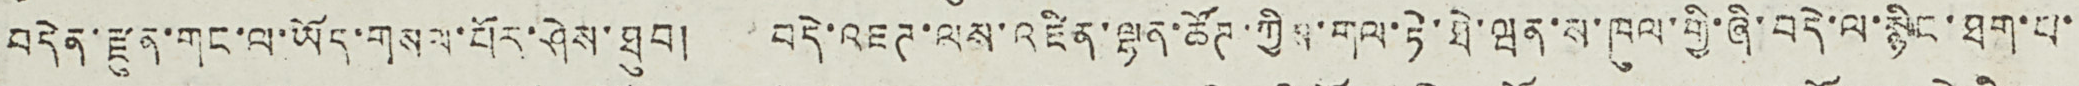བདེན་རྫུན་གང་ལ་ཡོད་གསལ་པོར་ཤེས་ཐུབ། བདེ་འཇཊ་ལས་འཛིན་ལྷན་ཚོཊ་ཀྱིས་གལ་ཏེ་ཐེ་ཝན་ས་ཁུལ་གྱི་ཞི་བདེ་ལ་སྙིང་ཐག་པ་
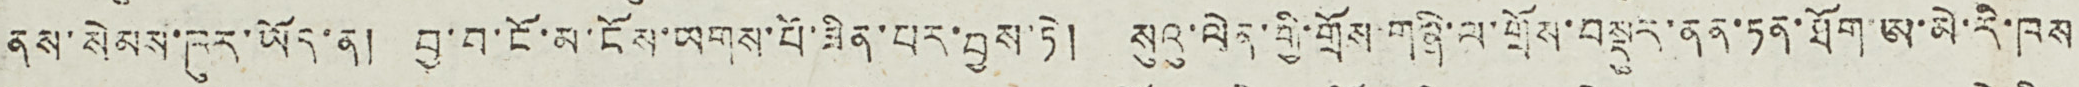ནས་སེམས་ཁུར་ཡོད་ན། བྱ་བ་ངོ་མ་ངོས་ཡགས་པོ་ཟིན་པར་བྱས་ཏེ། སུའུ་ལེན་གྱི་གྲོས་གཞི་ལ་གྲོས་བསྡུར་ནན་ཏན་ཐོག་ཨ་མེ་རི་ཁས
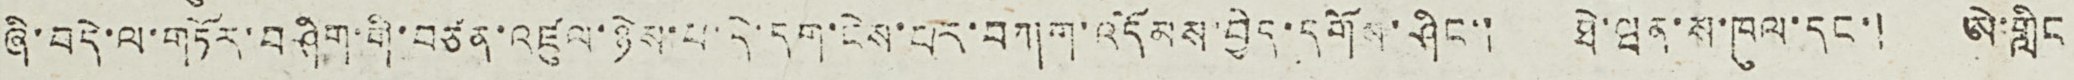ཞི་བདེ་ལ་གཏོར་བཤིག་གི་བཙན་འཛུལ་ཉེས་པ་དེ་དག་ངེས་པར་བཀག་འདོམས་བྱེད་དགོས་ཤིང་། ཐེ་ཝན་ས་ཁུལ་དང་། ཨེ་གླིང
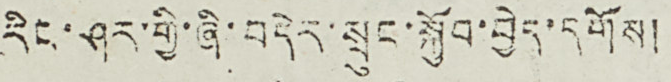རིང་ཤར་གྱི་ཞི་བདེར་སྲུང་སྐྱོབ་བྱེད་དགོས།
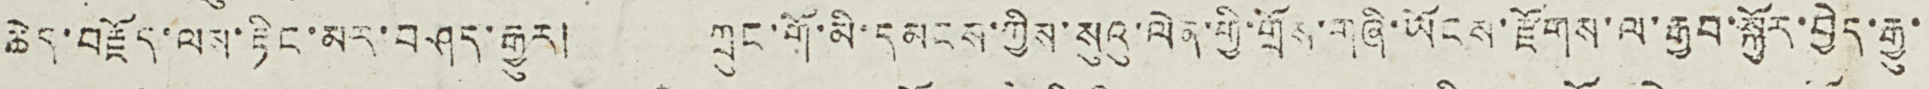ཆེད་བརྗོད་ལས་རྟིང་མར་བཤད་རྒྱུར། ཀྲུང་གོ་མི་དམངས་ཀྱིས་སུའུ་ལེན་གྱི་གྲོས་གཞི་ཡོངས་རྫོགས་ལ་རྒྱབ་སྐྱོར་བྱེད་རྒྱུ་
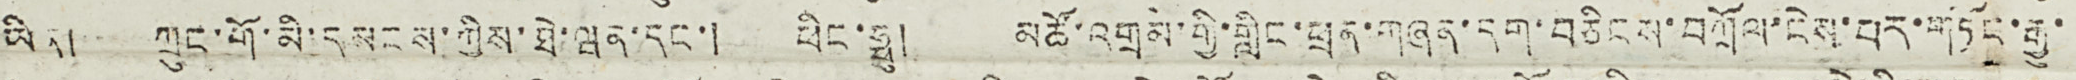ཡིན། ཀྲུང་གོ་མི་དམངས་ཀྱིས་ཐེ་ཝན་དང་། ཕྱིང་ཧྥུ། མཚོ་འགྲམ་གྱི་གླིང་ཕྲན་གཞན་དག་བཅིངས་བཀྲོལ་ངེས་པར་གཏོང་རྒྱུ་
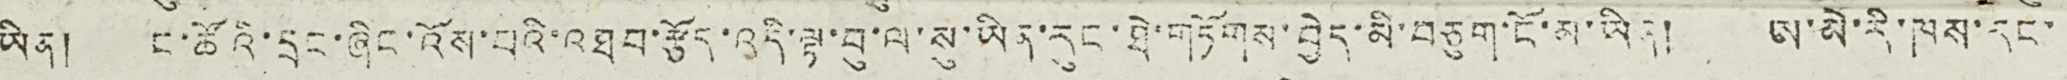ཡིན། ང་ཚོའི་དྲང་ཞིང་འོས་པའི་འཐབ་རྩོད་འདི་ལྟ་བུ་ལ་སུ་ཡིན་རུང་ཐེ་གཏོགས་བྱེད་མི་བཅུག་ངོ་མ་ཡིན། ཨ་མེ་རི་ཁས་རང་
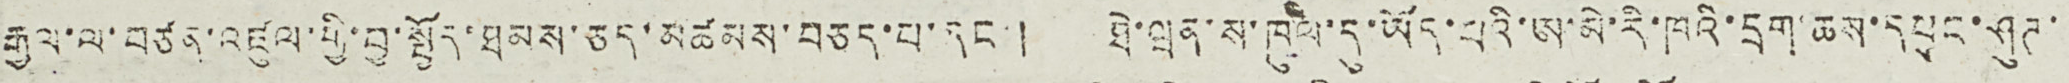རྒྱལ་ལ་བཙན་འཛུལ་གྱི་བྱ་སྤྱོད་ཐམས་ཅད་མཚམས་བཅད་པ་དང་། ཐེ་ཝན་ས་ཁུལ་དུ་ཡོད་པའི་ཨ་མེ་རི་ཁའི་དྲག་ཆས་དཔུང་ཤུཊ་
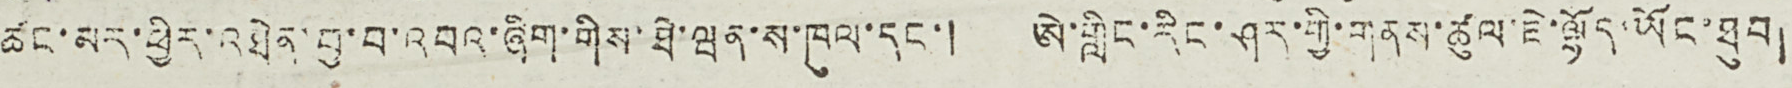ཚང་མར་ཕྱིར་འཐེན་བྱ་བ་འབའ་ཞིག་གིས་ཐེ་ཝན་ས་ཁུལ་དང་། ཨེ་གླིང་རིང་ཤར་གྱི་གནས་ཚུལ་ཇེ་ལྷོད་ཡོང་ཐུབ།
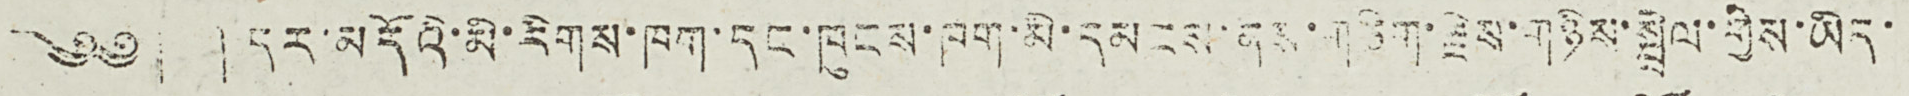༄༅། །དར་མདོའི་མི་རིགས་ཁག་དང་ཁུངས་ཁག་མི་དམངས་ནས་གཅིག་རྗེས་གཉིས་སྤྲེལ་གྱིས་ཡིད་
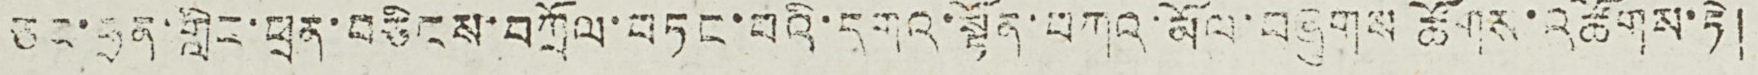ཅང་ཧྲན་གླིང་ཕྲན་བཅིངས་བཀྲོལ་བཏང་བའི་དགའ་སྟོན་བཀའ་མོལ་བཞུགས་ཚོགས་འཚོགས་ཏེ།
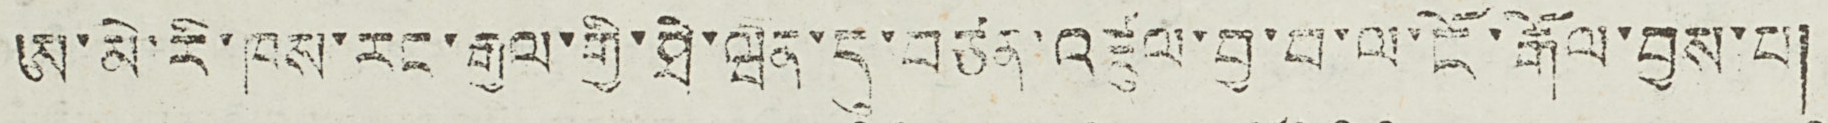ཨ་མེ་རི་ཁས་རང་རྒྱལ་གྱི་ཐེ་ཝན་དུ་བཙན་འཛུལ་བྱ་བ་ལ་ངོ་རྒོལ་བྱས་པ།
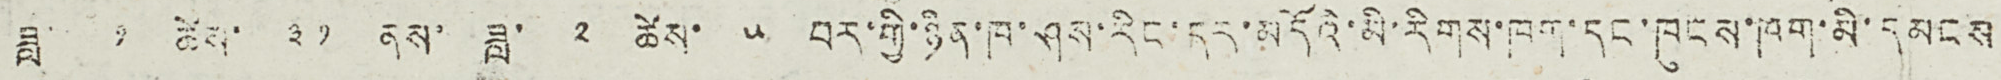ཟླ་ ༡ ཚེས་ ༣༡ ནས་ ཟླ་ ༢ ཚེས་ ༥ བར་གྱི་ཉིན་ཁ་ཤས་རིང་དར་མདོའི་མི་རིགས་ཁག་དང་ཁུངས་ཁག་མི་དམངས
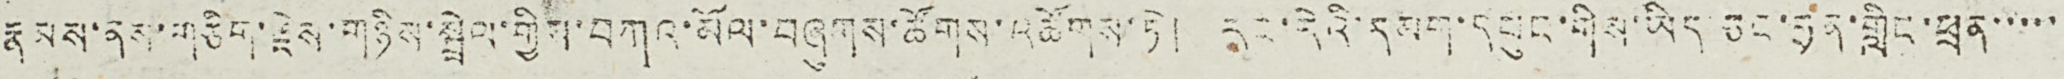རྣམས་ནས་གཅིག་རྗེས་གཉིས་སྤྲེལ་གྱིས་བཀའ་མོལ་བཞུགས་ཚོགས་འཚོགས་ཏེ། རང་རེའི་དམག་དཔུང་གིས་ཡིད་ཅང་ཧྲན་གླིང་ཕྲན་་་་་
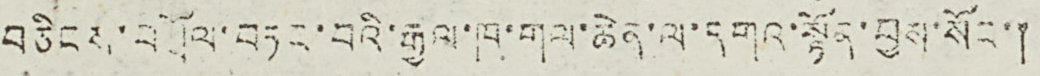བཅིངས་བཀྲོལ་བཏང་བའི་རྒྱལ་ཁ་གལ་ཆེན་ལ་དགའ་སྟོན་བྱས་སོང་།
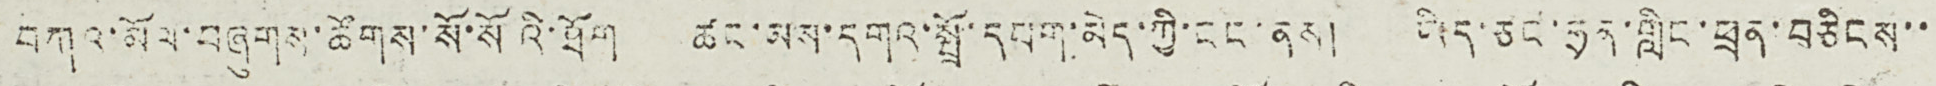བཀའ་མོལ་བཞུགས་ཚོགས་སོ་སོའི་ཐོག ཚང་མས་དགའ་སྤྲོ་དཔག་མེད་ཀྱི་ངང་ནས། ཡིད་ཅང་ཧྲན་གླིང་ཕྲན་བཅིངས་་
